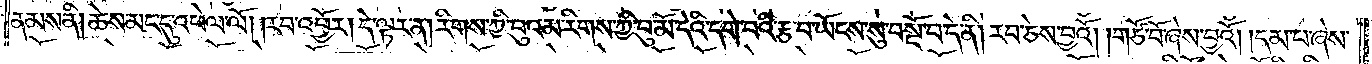ནམས་ནི། ཆེས་མང་དུ་འཕེལ་ལོ། །རབ་འབྱོར། དེ་ལྟར་ན། རིགས་ཀྱི་བུའམ་རིགས་ཀྱི་བུ་མོ་དེའི་དགེ་བའི་རྩ་བ་ཡོངས་སུ་བསྔོ་བ་དེ་ནི། རབ་ཅེས་བྱའོ། །གཙོ་བོ་ཞེས་བྱའོ། །དམ་པ་ཞེས་
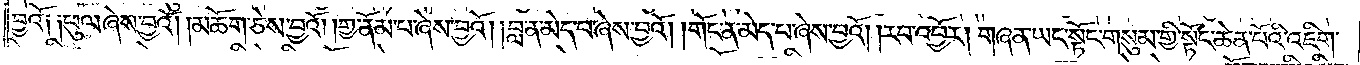བྱའོ༑ ༑ཕུལ་ཞེས་བྱའོ། །མཆོག་ཅེས་བྱའོ། །གྱ་ནོམ་པ་ཞེས་བྱའོ། བླ་ན་མེད་པ་ཞེས་བྱའོ། །གོང་ན་མེད་པ་ཞེས་བྱའོ། །རབ་འབྱོར། གཞན་ཡང་སྟོང་གསུམ་གྱི་སྟོང་ཆེན་པོའི་འཇིག་
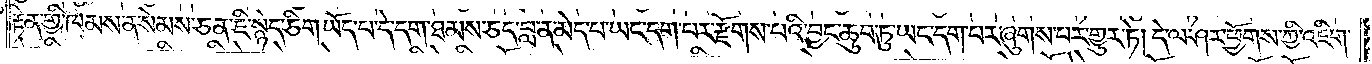རྟེན་གྱི་ཁམས་ན་སེམས་ཅན་ཇི་སྙེད་ཅིག་ཡོད་པ་དེ་དག་ཐམས་ཅད་བླ་ན་མེད་པ་ཡང་དག་པར་རྫོགས་པའི་བྱང་ཆུབ་ཏུ་ཡང་དག་པར་ཞུགས་པར་གྱུར་ཏེ། དེ་ལ་ཤར་ཕྱོགས་ཀྱི་འཇིག་
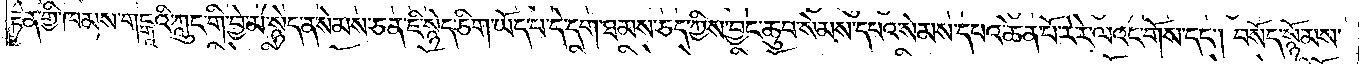རྟེན་གྱི་ཁམས་གངྒའི་ཀླུང་གི་བྱེ་མ་སྙེད་ན་སེམས་ཅན་ཇི་སྙེད་ཅིག་ཡོད་པ་དེ་དག་ཐམས་ཅད་ཀྱིས་བྱང་ཆུབ་སེམས་དཔའ་སེམས་དཔའ་ཆེན་པོ་རེ་རེ་ལའང་གོས་དང༌། བསོད་སྙོམས་
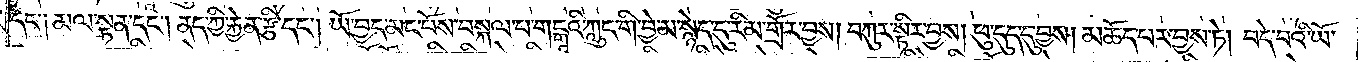དང་༑ མལ་སྟན་དང༌། ནད་ཀྱི་རྐྱེན་རྩི་དང༌། ཡོ་བྱད་མང་པོས་བསྐལ་པ་གངྒའི་ཀླུང་གི་བྱེ་མ་སྙེད་དུ་རིམ་གྲོར་བྱས། བཀུར་སྟིར་བྱས། ཕུ་དུད་དུ་བྱས། མཆོད་པར་བྱས་ཏེ། བདེ་བའི་ཡོ་
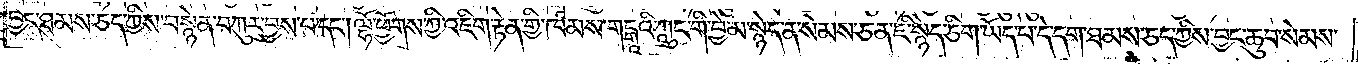བྱད་ཐམས་ཅད་ཀྱིས་བསྙེན་བཀུར་བྱས་པ་དང༌། ལྷོ་ཕྱོགས་ཀྱི་འཇིག་རྟེན་གྱི་ཁམས་གངྒའི་ཀླུང་གི་བྱེ་མ་སྙེད་ན་སེམས་ཅན་ཇི་སྙེད་ཅིག་ཡོང་པ་དེ་དག་ཐམས་ཅད་ཀྱིས་བྱང་ཆུབ་སེམས་
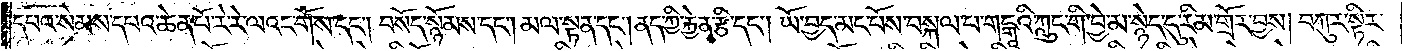དཔའ་སེམས་དཔའ་ཆེན་པོ་རེ་རེ་ལའང་གོས་དང༌། བསོད་སྙོམས་དང༌། མལ་སྟན་དང༌། ནད་ཀྱི་རྐྱེན་རྩི་དང༌། ཡོ་བྱད་མང་པོས་བསྐལ་པ་གངྒའི་ཀླུང་གི་བྱེ་མ་སྙེད་དུ་རིམ་གྲོར་བྱས། བཀུར་སྟིར་
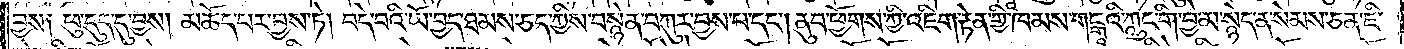བྱས༑ ཕུ་དུད་དུ་བྱས། མཆོད་པར་བྱས་ཏེ། བདེ་བའི་ཡོ་བྱད་ཐམས་ཅད་ཀྱིས་བསྙེན་བཀུར་བྱས་པ་དང༌། ནུབ་ཕྱོགས་ཀྱི་འཇིག་རྟེན་གྱི་ཁམས་གངྒའི་ཀླུང་གི་བྱེ་མ་སྙེད་ན་སེམས་ཅན་ཇི་
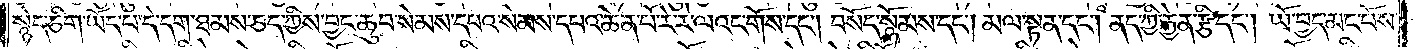སྙེད་ཅིག་ཡོད་པ་དེ་དག་ཐམས་ཅད་ཀྱིས་བྱང་ཆུབ་སེམས་དཔའ་སེམས་དཔའ་ཆེན་པོ་རེ་རེ་ལའང་གོས་དང༌། བསོད་སྙོམས་དང༌། མལ་སྟན་དང༌། ནད་ཀྱི་རྐྱེན་རྩི་དང༌། ཡོ་བྱད་མང་པོས་
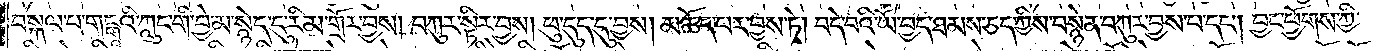བསྐལ་པ་གངྒའི་ཀླུང་གི་བྱེ་མ་སྙེད་དུ་རིམ་གྲོར་བྱས། བཀུར་སྟིར་བྱས། ཕུ་དུད་དུ་བྱས། མཆོད་པར་བྱས་ཏེ། བདེ་བའི་ཡོ་བྱད་ཐམས་ཅད་ཀྱིས་བསྙེན་བཀུར་བྱས་པ་དང༌། བྱང་ཕྱོགས་ཀྱི་
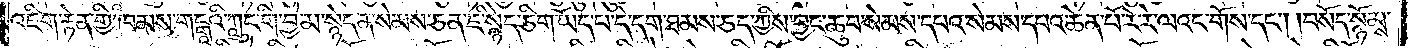འཇིག་རྟེན་གྱི་ཁམས་གངྒའི་ཀླུང་གི་བྱ་མ་སྙེད་ན་སེམས་ཅན་ཇི་སྙེད་ཅིག་ཡོད་པ་དེ་དག་ཐམས་ཅད་ཀྱིས་བྱང་ཆུབ་སེམས་དཔའ་སེམས་དཔའ་ཆེན་པོ་རེ་རེ་ལའང་གོས་དང༌། བསོད་སྙོམས་
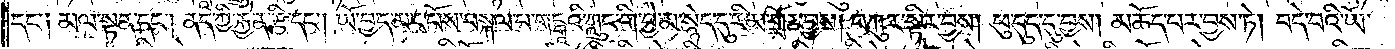དང་༑ མལ་སྟན་དང༌། ནད་ཀྱི་རྐྱེན་རྩི་དང༌། ཡོ་བྱད་མང་པོས་བསྐལ་པ་གངྒའི་ཀླུང་གི་བྱེ་མ་སྙེད་དུ་རིམ་གྲོར་བྱས། བཀུར་སྟིར་བྱས། ཕུ་དུད་དུ་བྱས། མཆོད་པར་བྱས་ཏེ། བདེ་བའི་ཡོ་
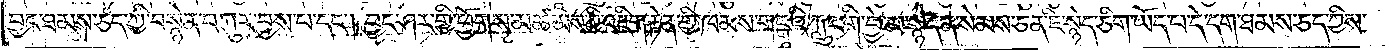བྱད་ཐམས་ཅད་ཀྱིས་བསྙེན་བཀུར་བྱས་པ་དང༌། བྱང་ཤར་གྱི་ཕྱོགས་མཚམས་ཀྱི་འཇིག་རྟེན་གྱི་ཁམས་གངྒའི་ཀླུང་གི་བྱེ་མ་སྙེད་ན་སེམས་ཅན་ཇི་སྙེད་ཅིག་ཡོད་པ་དེ་དག་ཐམས་ཅད་ཀྱིས་
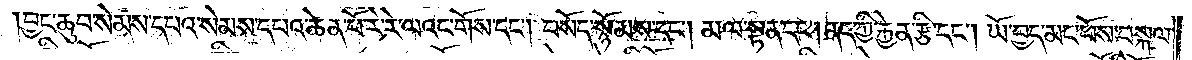བྱང་ཆུབ་སེམས་དཔའ་སེམས་དཔའ་ཆེན་པོ་རེ་རེ་ལའང་གོས་དང༌། བསོད་སྙོམས་དང༌། མལ་སྟན་དང༌། ནད་ཀྱི་རྐྱེན་རྩི་དང༌། ཡོ་བྱད་མང་པོས་བསྐལ་
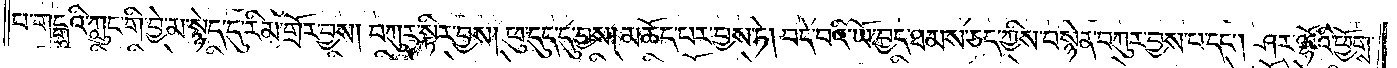པ་གངྒའི་ཀླུང་གི་བྱེ་མ་སྙེད་དུ་རིམ་གྲོར་བྱས། བཀུར་སྟིར་བྱས། ཕུ་དུད་དུ་བྱས། མཆོད་པར་བྱས་ཏེ། བདེ་བའི་ཡོ་བྱད་ཐམས་ཅད་ཀྱིས་བསྙེན་བཀུར་བྱས་པ་དང༌། ཤར་ལྷོའི་ཕྱོགས་
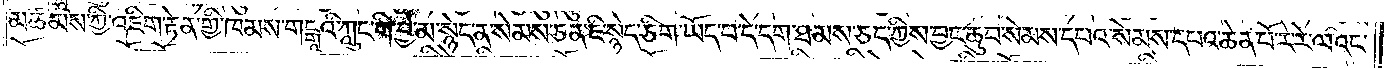མཚམས་ཀྱི་འཇིག་རྟེན་གྱི་ཁམས་གངྒའི་ཀླུང་གི་བྱེ་མ་སྙེད་ན་སེམས་ཅན་ཇི་སྙེད་ཅིག་ཡོད་པ་དེ་དག་ཐམས་ཅད་ཀྱིས་བྱང་ཆུབ་སེམས་དཔའ་སེམས་དཔའ་ཆེན་པོ་རེ་རེ་ལའང་
